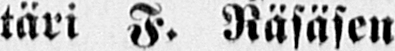täri F. Räsäsen
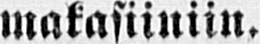makasiiniin.
